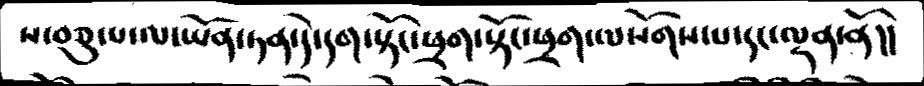ས་བཅུ་པ་ལ་ཡོན་ཏན་དེ་དག་སྟོང་ཕྲག་སྟོང་ཕྲག་ལསོགས་པ་དང་ལྡན་ནོ།།
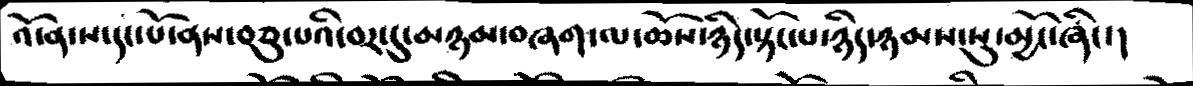འོ་ན་ས་དང་པོ་ནས་བཅུ་པའི་བར་དུ་མཉམ་བཞག་ལ་ཆོས་ཉིད་སྟོང་པ་ཉིད་ཉམས་སུ་མྱོང་ཞིང་།
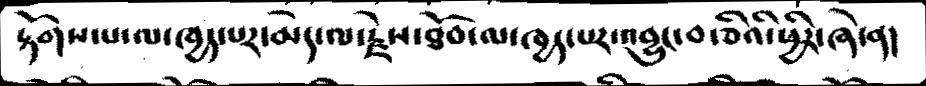རྟོགས་པ་ལ་ཁྱད་པར་མེད་ལ་རྗེས་ཐོབ་ལ་ཁྱད་པར་འབྱུང་བ་ཅིའི་ཕྱིར་ཞེ་ན།
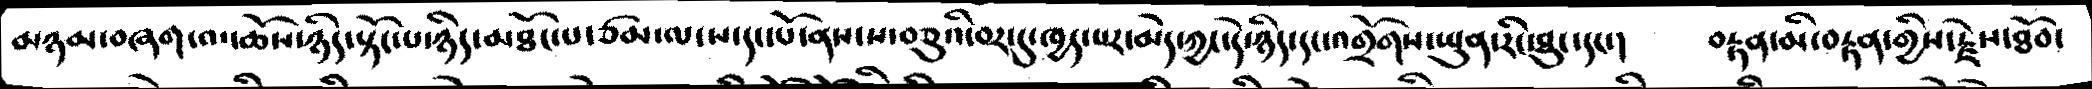མཉམ་བཞག་ལ་ཆོས་ཉིད་སྟོང་པ་ཉིད་མཐོང་པ་ཙམ་ལ་ས་དང་པོ་ནས་ས་བཅུའི་བར་དུ་ཁྱད་པར་མེད་ཀྱང་དེ་ཉིད་དང་འགྲོགས་ཡུན་རིང་ཐུང་དང་།   བརྟན་མི་བརྟན་གྱིས་རྗེས་ཐོབ་
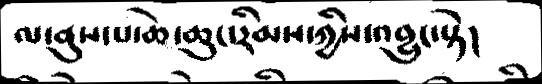ལ་ནུས་པ་ཆེ་ཆུང་རིམས་ཀྱིས་འབྱུང་སྟེ།
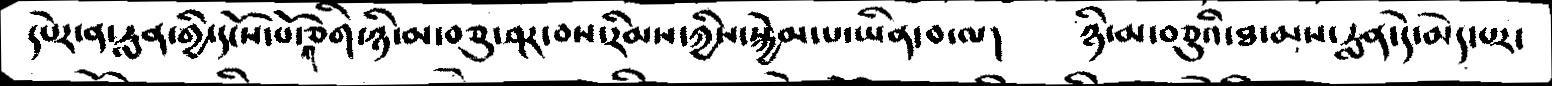དཔེར་ན་རླན་གྱི་དངོས་པོ་གཅིག་ཉི་མ་བཅུ་ཤར་བས་རིམས་ཀྱིས་སྐྱེམ་པ་ཡིན་བ་ལ།  ཉི་མ་བཅུའི་ཐ་མས་རླན་དེ་མེད་པར་
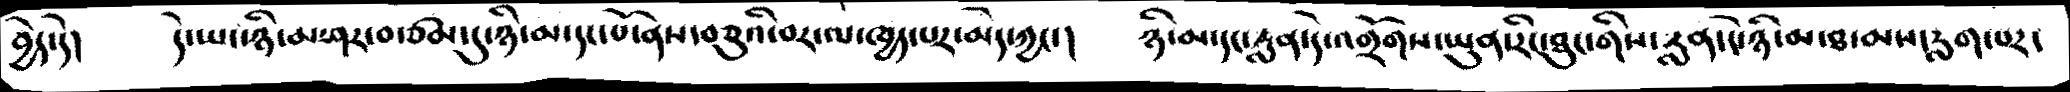བྱེད་དེ།    དེ་ཡང་ཉི་མ་ཤར་བ་ཙམ་དུ་ཉི་མ་དང་པོ་ནས་བཅུའི་བར་ལ་ཁྱད་པར་མེད་ཀྱང་།   ཉི་མ་དང་རླན་དེ་འགྲོགས་ཡུན་རིང་ཐུང་གིས་རླན་དེ་ཉི་མ་ཐ་མས་རླག་པར་
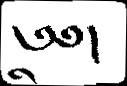༄༅།
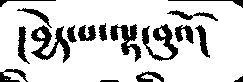།བྱེད་པ་ལྟ་བུའོ།
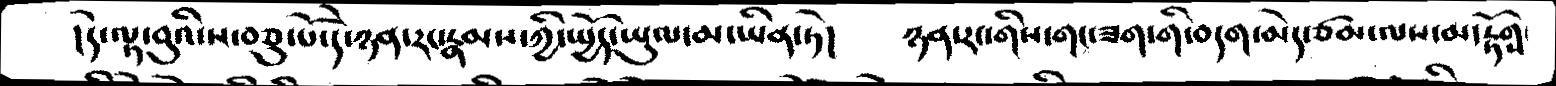།དེ་ལྟ་བུའི་ས་བཅུ་པོ་དེ་ཉན་རང་རྣམས་ཀྱི་སྤྱོད་ཡུལ་མ་ཡིན་ཏེ།   ཉན་རང་གིས་གང་ཟག་གི་བདག་མེད་ཙམ་ལས་མ་རྟོགས་
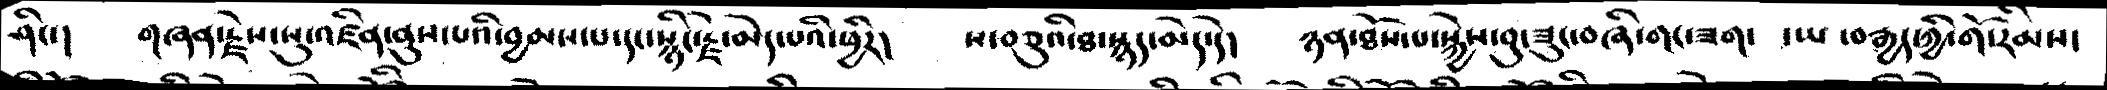ཤིང་།    གཞན་རྗེས་སུ་འཛིན་ནུས་པའི་བྱམས་པ་དང་སྙིང་རྗེ་མེད་པའི་ཕྱིར།    ས་བཅུའི་ཐ་སྙད་མེད་དེ།   ཉན་ཐོས་པ་སྐྱེས་བུ་ཟུང་བཞི་གང་ཟག་  ་ཡ་བརྒྱད་ཀྱི་གོ་རིམས་
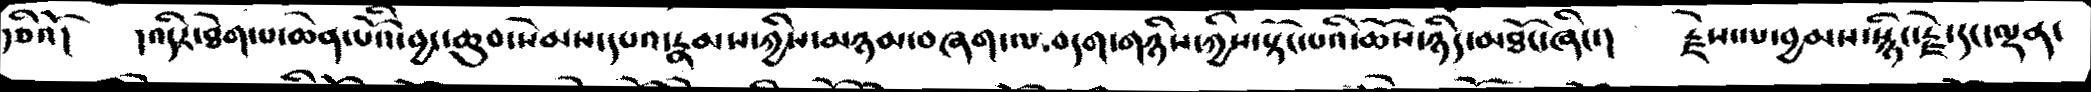རྩིའོ།   །འདིར་ཐེག་པ་ཆེན་པོའི་བྱང་ཆུབ་སེམས་དཔའ་རྣམས་ཀྱིས་མཉམ་བཞག་ལ་བདག་གཉིས་ཀྱིས་སྟོང་པའི་ཆོས་ཉིད་མཐོང་ཞིང་།   རྗེས་ལ་བྱམས་སྙིང་རྗེ་དང་ལྡན་
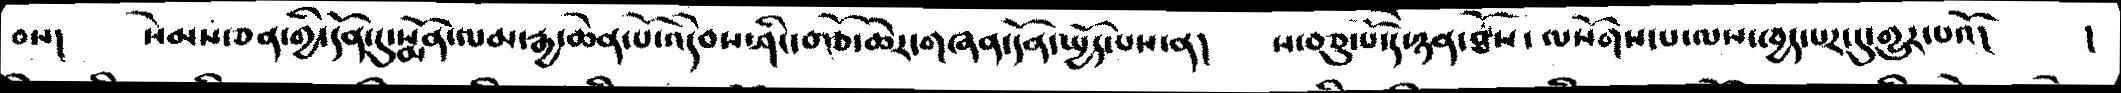བས་།    སེམས་ཅན་གྱི་དོན་དུ་སྨོན་ལམ་རྒྱ་ཆེན་པོ་འདེབས་ཤིང་གཙོ་ཆེར་གཞན་དོན་སྤྱོད་པས་ན།    ས་བཅུ་པོ་དེ་ཉན་ཐོས་ལསོགས་པ་ལས་ཁྱད་པར་དུ་གྱུར་པའོ།  །
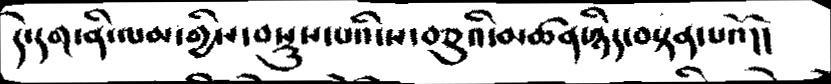དེ་དག་ནི་ལམ་གྱིས་བསྡུས་པའི་ས་བཅུའི་མཚན་ཉིད་བསྟན་པའོ།།
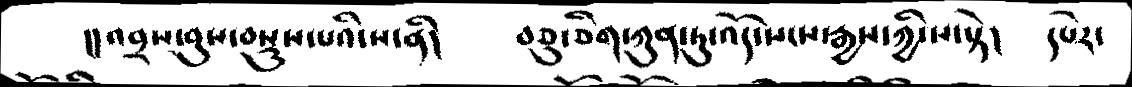།། འབྲས་བུས་བསྡུས་པའི་ས་ནི།   བཅུ་ཅིག་ཀུན་ཏུ་འོད་སངས་རྒྱས་ཀྱི་ས་སྟེ།   དཔེར་
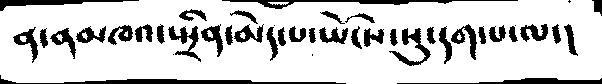ན་ནམཁའ་སྤྲིན་མེད་པ་ཡོངས་སུ་དག་པ་ལ་།
